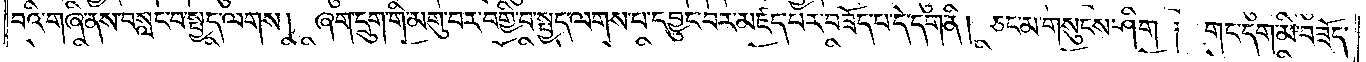བའི་གཞི་ནས་བསླང་བ་སྤྱད་ལགས། ཞག་དྲུག་གི་མགུ་བར་བགྱི་བ་སྤྱད་ལགས་པ་དབྱུང་བར་མཛད་པར་བཟོད་པ་དེ་དག་ནི། ཅང་མ་གསུངས་ཤིག། གང་དག་མི་བཟོད་
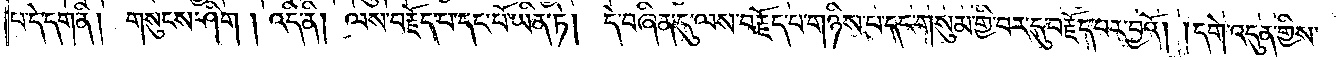པ་དེ་དག་ནི། གསུངས་ཤིག། འདི་ནི། ལས་བརྗོད་པ་དང་པོ་ཡིན་ཏེ། དེ་བཞིན་དུ་ལས་བརྗོད་པ་གཉིས་པ་དང་གསུམ་གྱི་བར་དུ་བརྗོད་པར་བྱའོ། །དགེ་འདུན་གྱིས་
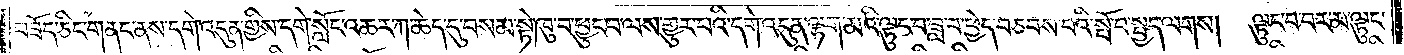བཟོད་ཅིང་གནང་ནས་དགེ་འདུན་གྱིས་དགེ་སློང་འཆར་ཀ་ཆེད་དུ་བསམ་སྟེ་ཁུ་བ་ཕྱུང་བ་ལས་གྱུར་པའི་དགེ་འདུན་ལྷག་མའི་ལྟུང་བ་ཟླ་བ་ཕྱེད་བཅབས་པའི་སྤོ་བ་སྤྱད་ལགས། ལྟུང་བ་བར་མ་ལྟུང་
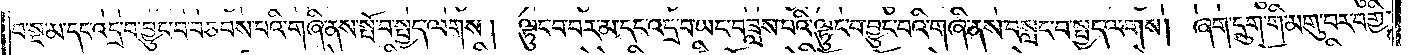བ་སྔ་མ་དང་འདྲ་བ་བྱུང་བ་བཅབས་པའི་གཞི་ནས་སྤོ་བ་སྤྱད་ལགས། ལྟུང་བ་བར་མ་དང་འདྲ་བ་ཡང་བཟླས་པའི་ལྟུང་བ་བྱུང་བའི་གཞི་ནས་བསླང་བ་སྤྱད་ལགས། ཞག་དྲུག་གི་མགུ་བར་བགྱི་
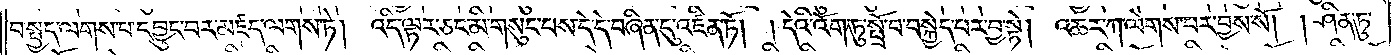བ་སྤྱད་ལགས་པ་དབྱུང་བར་མཛད་ལགས་ཏེ། འདི་ལྟར་ཅང་མི་གསུང་པས་དེ་དེ་བཞིན་དུ་འཛིན་ཏོ། །དེའི་འོག་ཏུ་སྤྲོ་བ་བསྐྱེད་པར་བྱ་སྟེ། འཆར་ཀ་ལེགས་པར་བྱས་སོ། །ཤིན་ཏུ་
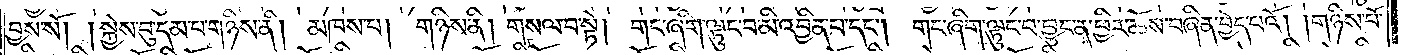བྱས་སོ། །སྐྱེས་བུ་དམ་པ་གཉིས་ནི། མཁས་པ། གཉིས་ནི། གསལ་བ་སྟེ། གང་ཞིག་ལྟུང་བ་མི་འབྱིན་པ་དང༌། གང་ཞིག་ལྟུང་བ་བྱུང་ན་ཕྱིར་ཆོས་བཞིན་བྱེད་པའོ། །གཉིས་པོ་
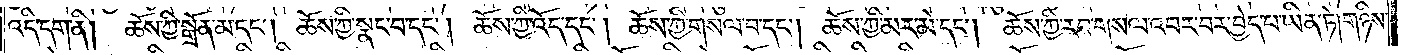འདི་དག་ནི། ཆོས་ཀྱི་སྒྲོན་མ་དང༌། ཆོས་ཀྱི་སྣང་བ་དང༌། ཆོས་ཀྱི་འོད་དང༌། ཆོས་ཀྱི་གསལ་བ་དང༌། ཆོས་ཀྱི་མར་མེ་དང༌། ཆོས་ཀྱི་རབ་གསལ་འབར་བར་བྱེད་པ་ཡིན་ཏེ། གཉིས་
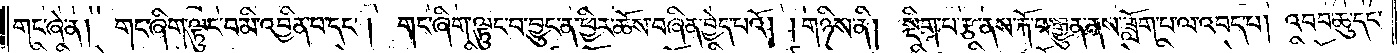གང་ཞེ་ན། གང་ཞིག་ལྟུང་བ་མི་འབྱིན་པ་དང༌། གང་ཞིག་ལྟུང་བ་བྱུང་ན་ཕྱིར་ཆོས་བཞིན་བྱེད་པའོ། །གཉིས་ནི། སྡིག་པ་རྩ་ནས་རྐོ་བ་རྒྱུན་ནས་ཟློག་པ་ལ་འབད་པ། འབབ་ཆུ་དང་
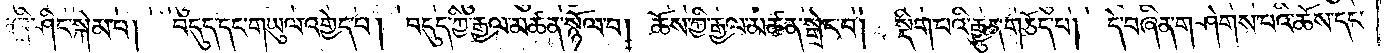འཁྲི་ཤིང་སྐེམ་པ། བདུད་དང་གཡུལ་འགྱེད་པ། བདུད་ཀྱི་རྒྱལ་མཚན་སྙོལ་བ། ཆོས་ཀྱི་རྒྱལ་མཚན་སྒྲེང་བ། སྡིག་པའི་རྒྱུན་གཅོད་པ། དེ་བཞིན་གཤེགས་པའི་ཆོས་དང་
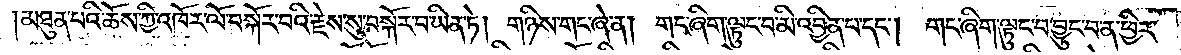།མཐུན་པའི་ཆོས་ཀྱི་འཁོར་ལོ་བསྐོར་བའི་རྗེས་སུ་བསྐོར་བ་ཡིན་ཏེ། གཉིས་གང་ཞེ་ན། གང་ཞིག་ལྟུང་བ་མི་འབྱིན་པ་དང༌། གང་ཞིག་ལྟུང་བ་བྱུང་བ་ན་ཕྱིར་
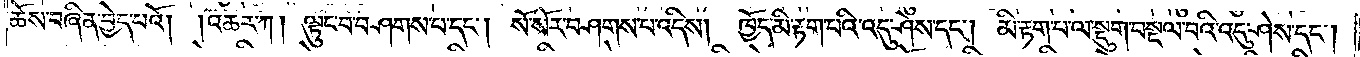ཆོས་བཞིན་བྱེད་པའོ། །འཆར་ཀ། ལྟུང་བ་བཤགས་པ་དང༌། སོ་སོར་བཤགས་པ་འདིས། ཁྱོད་མི་རྟག་པའི་འདུ་ཤེས་དང༌། མི་རྟག་པ་ལ་སྡུག་བསྔལ་བའི་འདུ་ཤེས་དང༌།
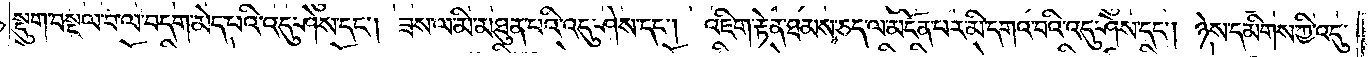སྡུག་བསྔལ་བ་ལ་བདག་མེད་པའི་འདུ་ཤེས་དང༌། ཟས་ལ་མི་མཐུན་པའི་འདུ་ཤེས་དང༌། འཇིག་རྟེན་ཐམས་ཅད་ལ་མངོན་པར་མི་དགའ་བའི་འདུ་ཤེས་དང༌། ཉེས་དམིགས་ཀྱི་འདུ་
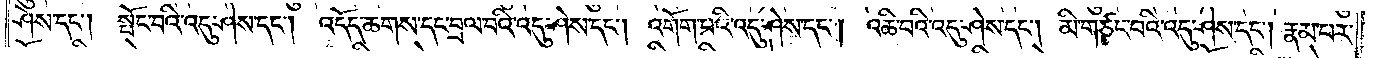ཤེས་དང༌། སྤོང་བའི་འདུ་ཤེས་དང༌། འདོད་ཆགས་དང་བྲལ་བའི་འདུ་ཤེས་དང༌། འགོག་པའི་འདུ་ཤེས་དང༌། འཆི་བའི་འདུ་ཤེས་དང༌། མི་གཙང་པའི་འདུ་ཤེས་དང༌། རྣམ་པར་
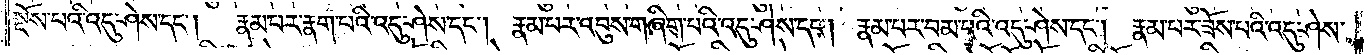སྔོས་པའི་འདུ་ཤེས་དང༌། རྣམ་པར་རྣག་པའི་འདུ་ཤེས་དང༌། རྣམ་པར་འབུས་གཞིག་པའི་འདུ་ཤེས་དང༌། རྣམ་པར་བམ་པའི་འདུ་ཤེས་དང༌། རྣམ་པར་ཟོས་པའི་འདུ་ཤེས་
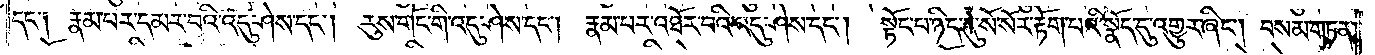དང༌། རྣམ་པར་དམར་བའི་འདུ་ཤེས་དང༌། རུས་གོང་གི་འདུ་ཤེས་དང༌། རྣམ་པར་འཐོར་བའི་འདུ་ཤེས་དང༌།    སྟོང་པ་ཉིད་དུ་སོ་སོར་རྟོག་པའི་སྣོད་དུ་འགྱུར་ཞིང༌། བསམ་གཏན་
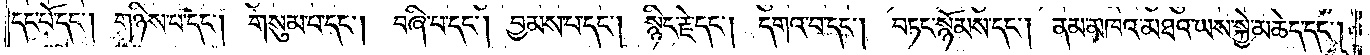དང་པོ་དང༌། གཉིས་པ་དང༌། གསུམ་པ་དང༌། བཞི་པ་དང༌། བྱམས་པ་དང༌། སྙིང་རྗེ་དང༌། དགའ་བ་དང༌། བཏང་སྙོམས་དང༌། ནམ་མཁའ་མཐའ་ཡས་སྐྱེ་མཆེད་དང༌།
